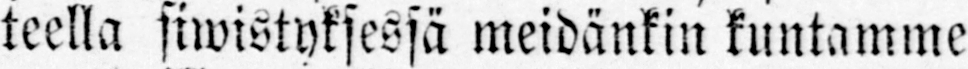teella siwistyksessä meidänkin kuntamme
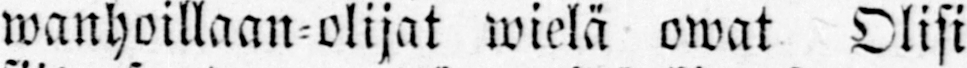wanhoillaan-olijat wielä owat Olisi
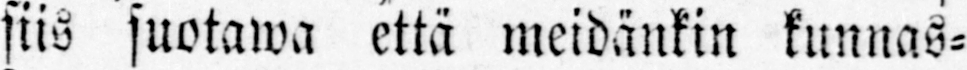siis suotawa että meidänkin kunnas-
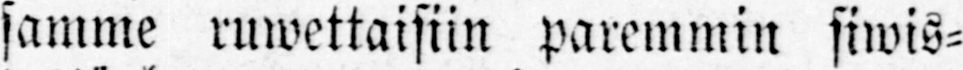samme ruwettaisiin paremmin siwis-
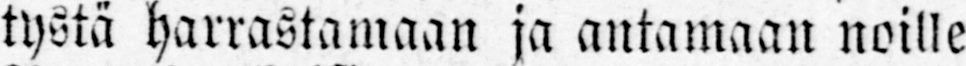tystä harrastamaan ja antamaan noille
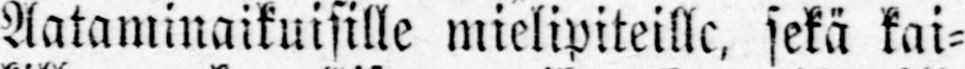Aataminaikuisille mielipiteille, sekä kai-
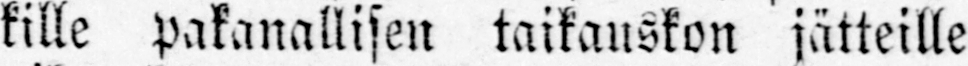kille pakanallisen taikauskon jätteille
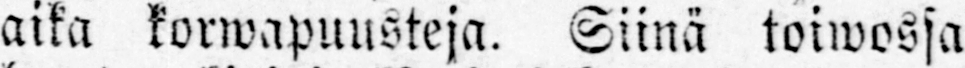aika korwapuusteja. Siinä toiwossa
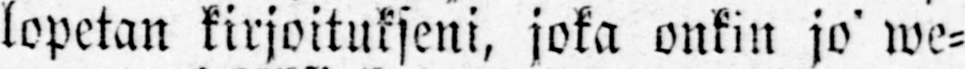lopetan kirjoitukseni, joka onkin jo we-
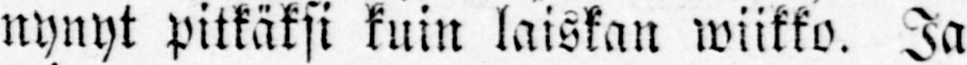nynyt pitkäksi kuin laiskan wiikko. Ja
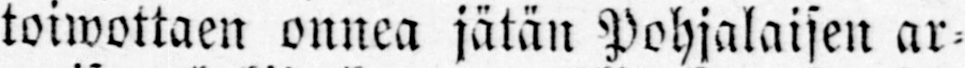toiwottaen onnea jätän Pohjalaisen ar-
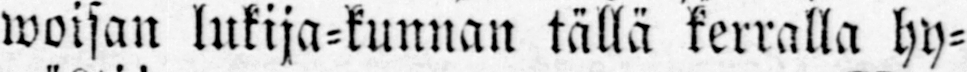woihin lukija-kunnan tällä kerralla hy-
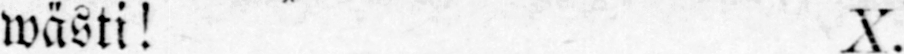wästi! X.
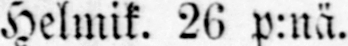Helmik. 26 p:nä.
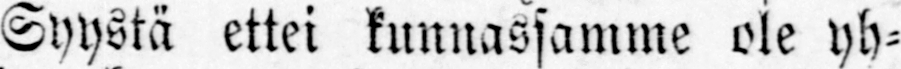Syystä ettei kunnassamme ole yh-
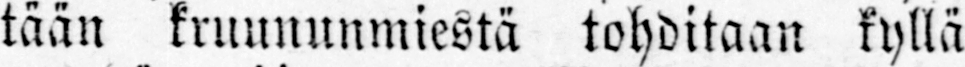tään kruununmiestä tohditaan kyllä
